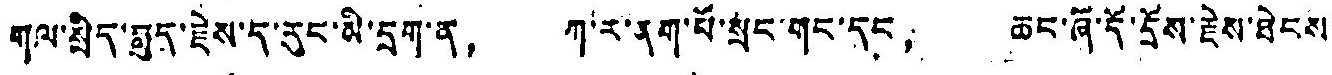གལ་སྲིད་མུད་རྗེས་ད་རུང་མི་དྲག་ན， ཀ་ར་ནག་པོ་སྲུང་གང་དང， ཆང་ཞོ་དོ་དྲོས་རྗེས་ཐེངས་
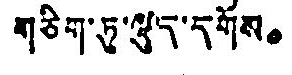གཅིག་ཏུ་ལྡུད་དགོས。
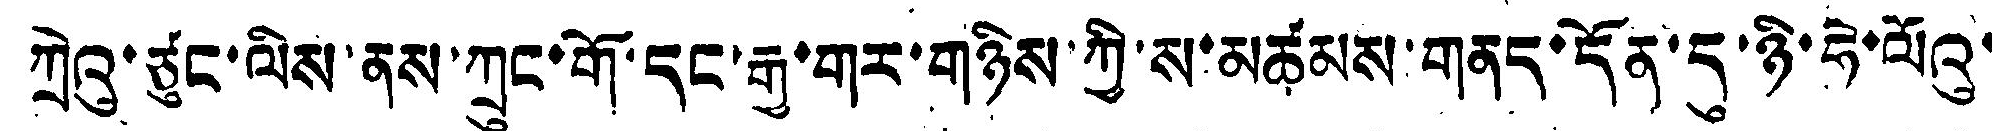ཀྲེའུ་ཙུང་ལིས་ནས་ཀྲུང་གོ་དང་རྒྱ་གར་གཉིས་ཀྱི་ས་མཚམས་གནད་དོན་དུ་ཉི་ཧེ་ལོའུ་
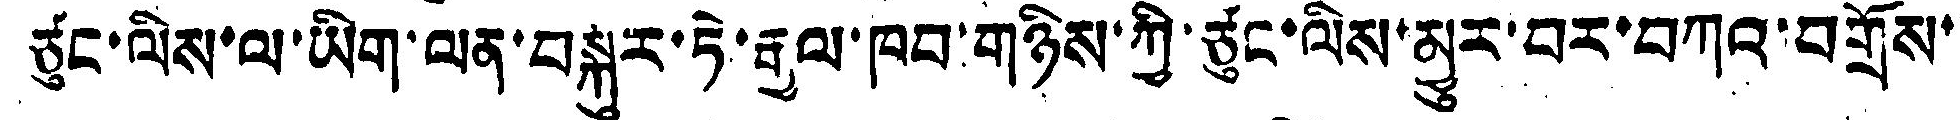ཙུང་ལིས་ལ་ཡིག་ལན་བསྐུར་ཏེ་རྒྱལ་ཁབ་གཉིས་ཀྱི་ཙུང་ལིས་མྱུར་བར་བཀའ་བགྲོས་
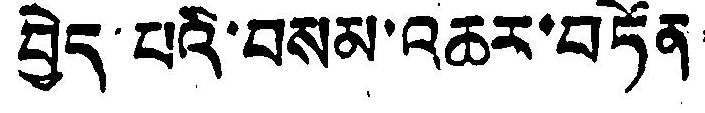བྱེད་པའི་བསམ་འཆར་བདོན
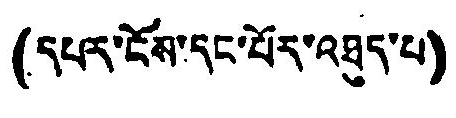(དཔར་ངས་དང་པར་འཐུད་པ)
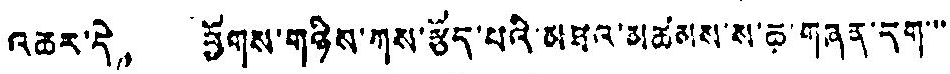འཆར་དེ， ཕྱོགས་གཉིས་ཀས་རྩོད་པའི་མཐའ་མཚམས་ས་ཆ་གཞན་དག་་་
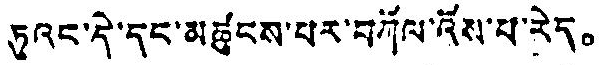ཏུའང་དེ་དང་མཚུངས་པར་བཀོལ་འོས་པ་རེད。
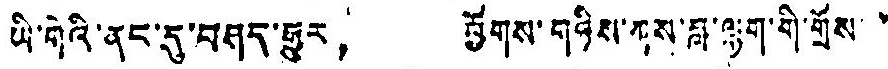ཡི་གེའི་ནང་དུ་བཤད་རྒྱུར， ཕྱོགས་གཉིས་ཀས་ཟླ་ལྷག་གི་གྲོས་་
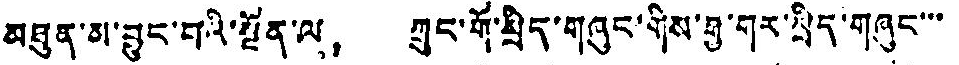མཐུན་མ་བྱུང་བའི་སྔོན་ལ， ཀྲུང་གོ་སྲིད་གཞུང་གིས་རྒྱ་གར་སྲིད་གཞུང་་་
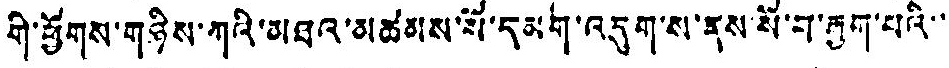གི་ཕྱོགས་གཉིས་ཀའི་མཐའ་མཚམས་སོ་དམག་འདུག་ས་ནས་སོ་བ་རྒྱག་པའི་་
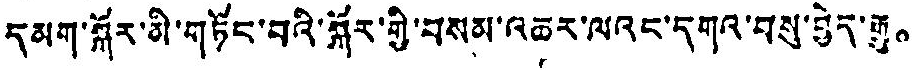དམག་སྐོར་མི་གཏོང་བའི་སྐོར་གྱི་བསམ་འཆར་ལའང་དགའ་བསུ་བྱེད་རྒྱུ。
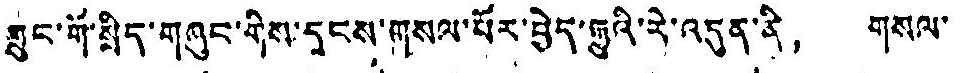སྲུང་གོ་སྲིད་གཞུང་གིས་དྭངས་གསལ་པོར་བྱེད་རྒྱུའི་རེ་འདུན་ནི， གསལ་
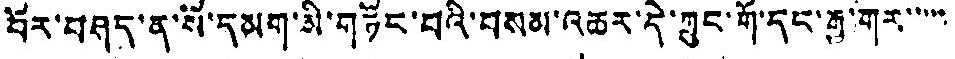བོར་བཤད་ན་སོ་དམག་མི་གཏོང་བའི་བསམ་འཆར་དེ་ཀྲུང་གོ་དང་རྒྱ་གར་་་་་་
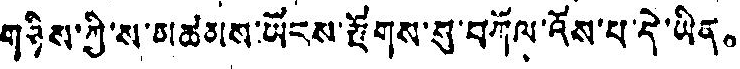གཉིས་ཀྱི་ས་མཚམས་ཡོངས་རྫོགས་སུ་བཀོལ་འོས་པ་དེ་ཡིན。
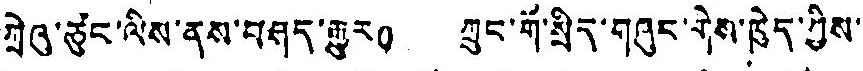ཀྲེའུ་ཙུང་ལིས་ནས་བཤད་རྒྱུར。 ཀྲུང་གོ་སྲིད་གཞུང་གིས་ཁྱེད་ཀྱིས་
